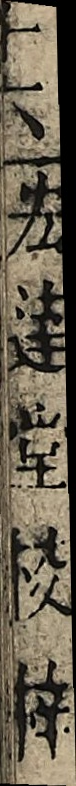宏達堂校梓
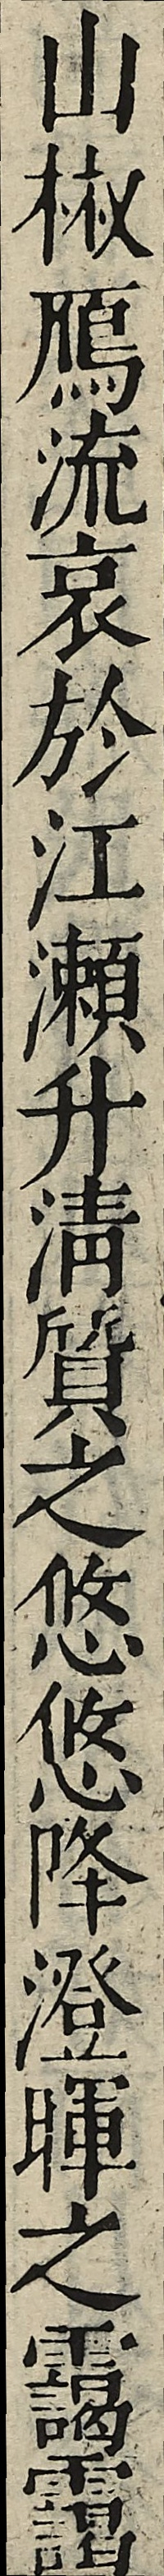山椒鴈流哀於江瀨升清質之悠悠降澄暉之靄靄
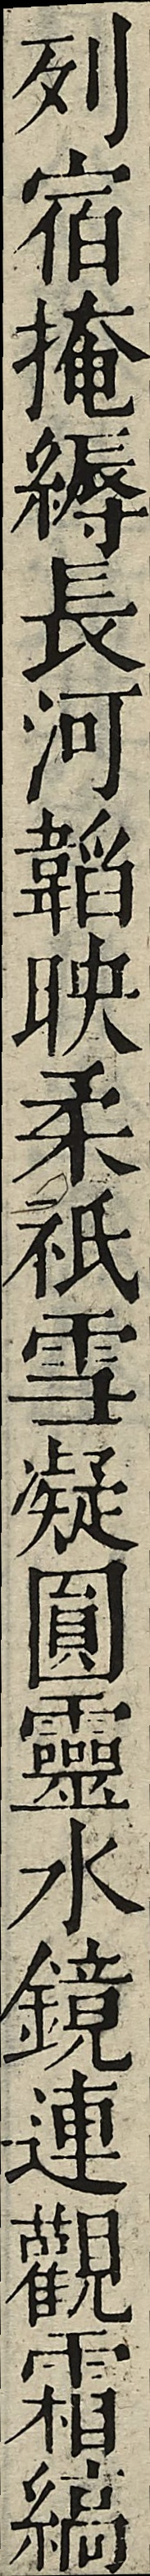列宿掩縟長河韜映柔祇雪凝圓靈水鏡連觀霜縞
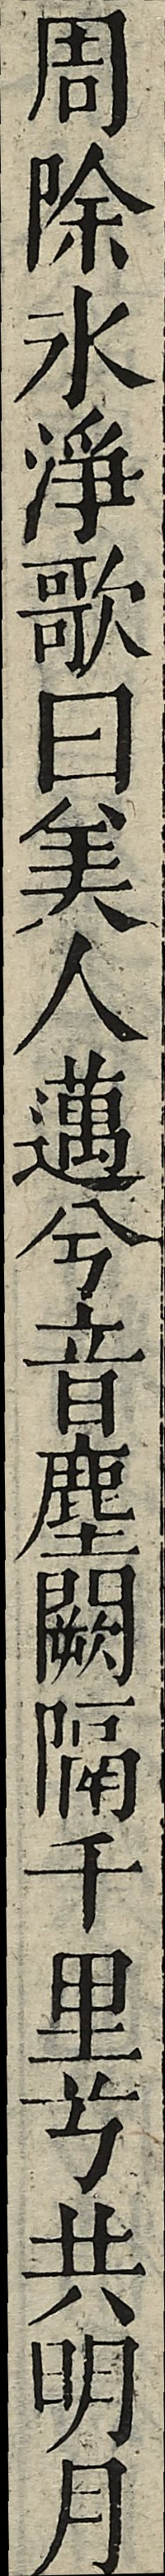周除冰淨歌曰美人邁兮音塵闕隔千里兮共明月
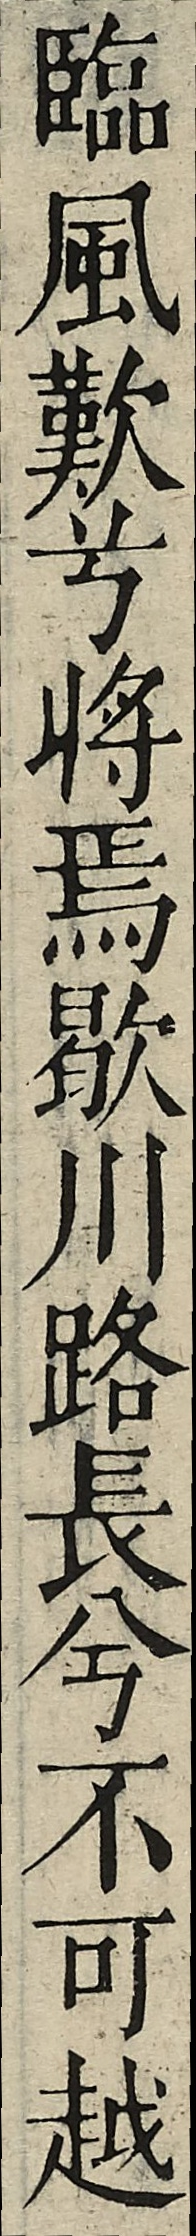臨風歎兮將焉歇川路長兮不可越
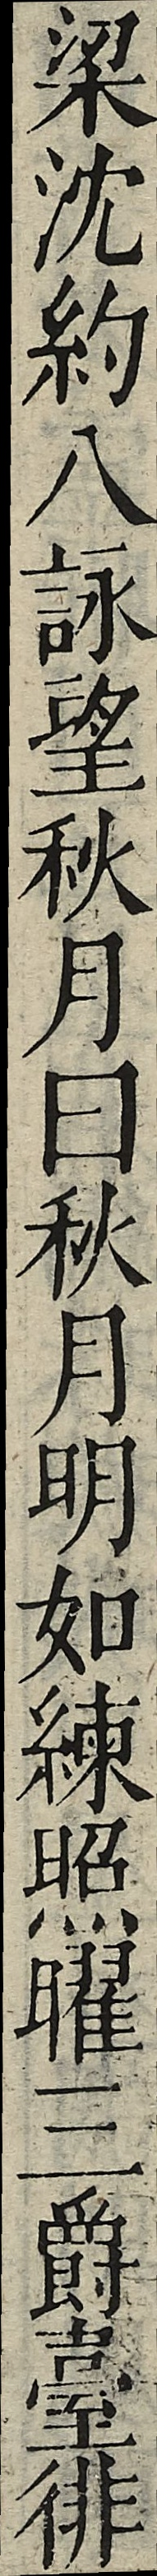梁沈約八詠望秋月曰秋月明如練照曜三爵臺徘
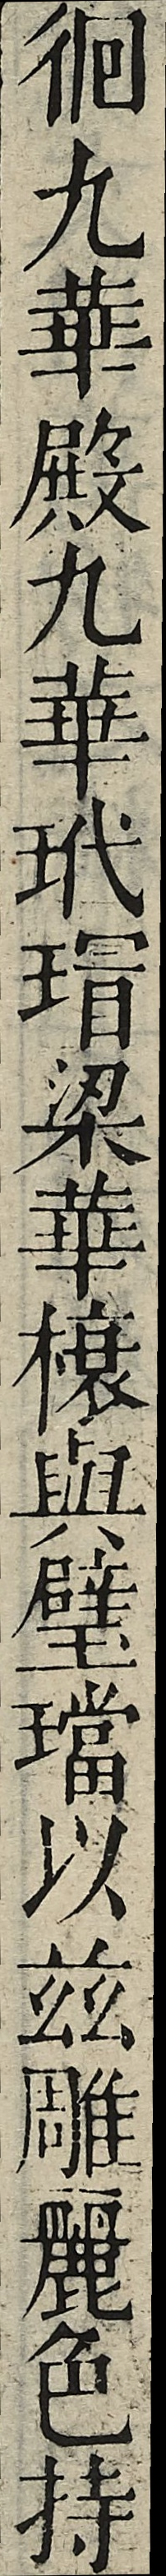徊九華殿九華玳瑁梁華榱與璧璫以茲雕麗色持
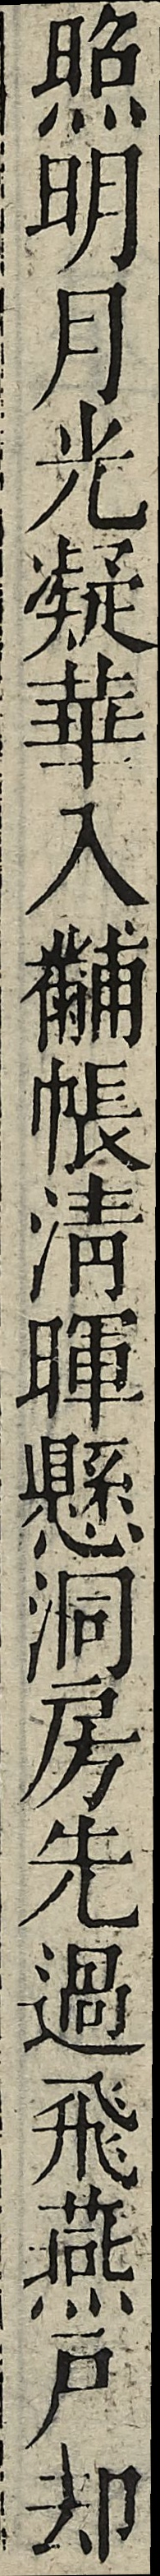照明月光凝華入黼帳清暉懸洞房先過飛燕戶卻
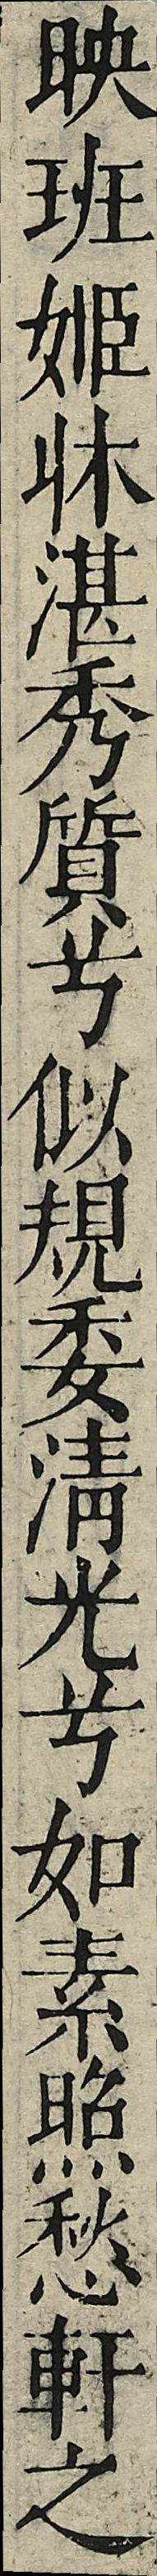映班姬床湛秀質兮似規委清光兮如素照愁軒之
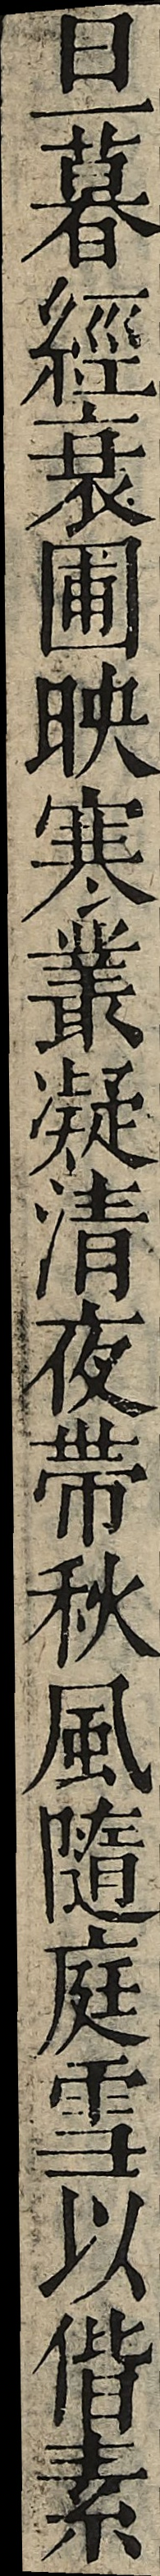旦暮經衰圃映寒叢凝清夜帶秋風隨庭雪以偕素
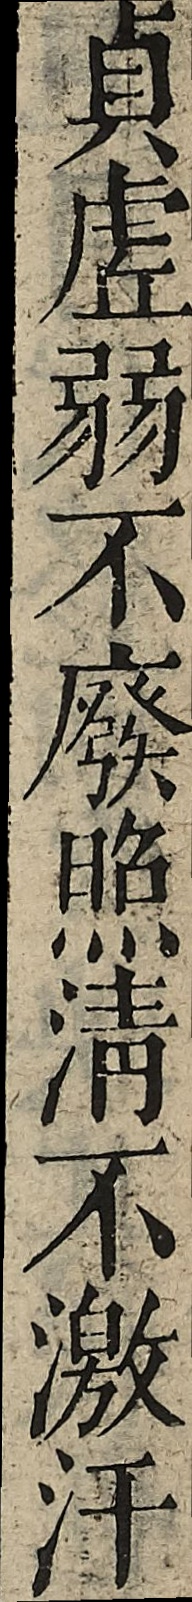貞虛弱不廢照清不激汙
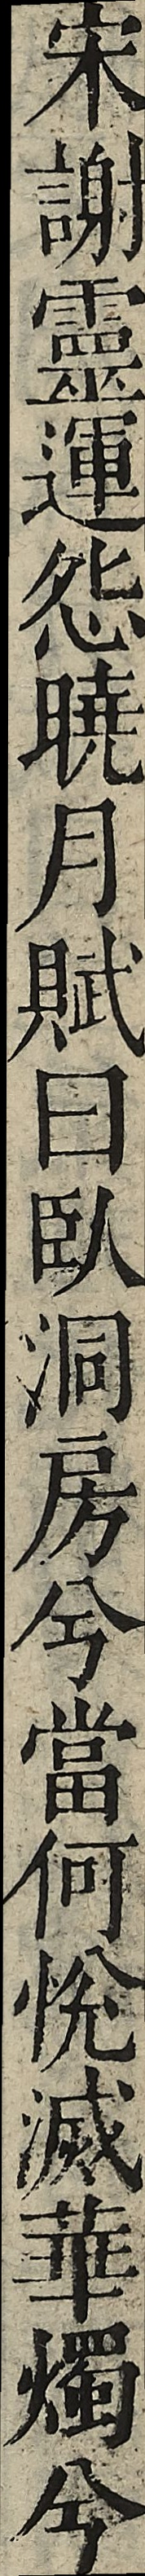宋謝靈運怨曉月賦曰臥洞房兮當何悅滅華燭兮
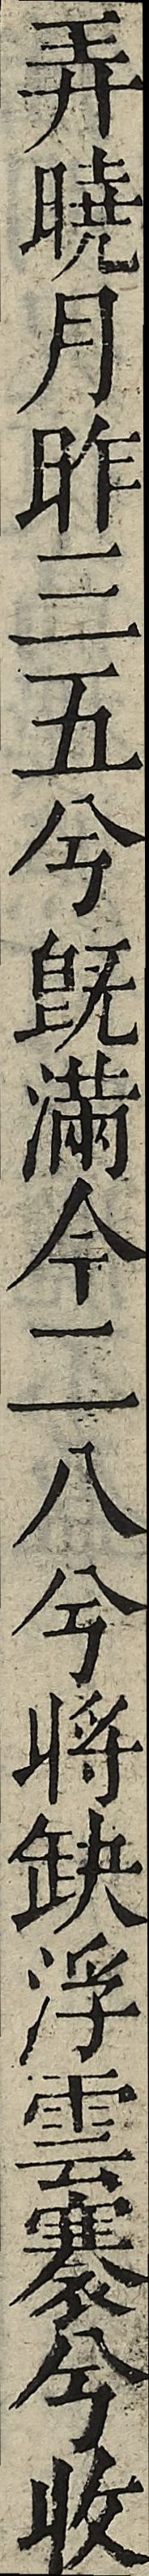弄曉月昨三五兮既滿今二八兮將缺浮雲褰兮收
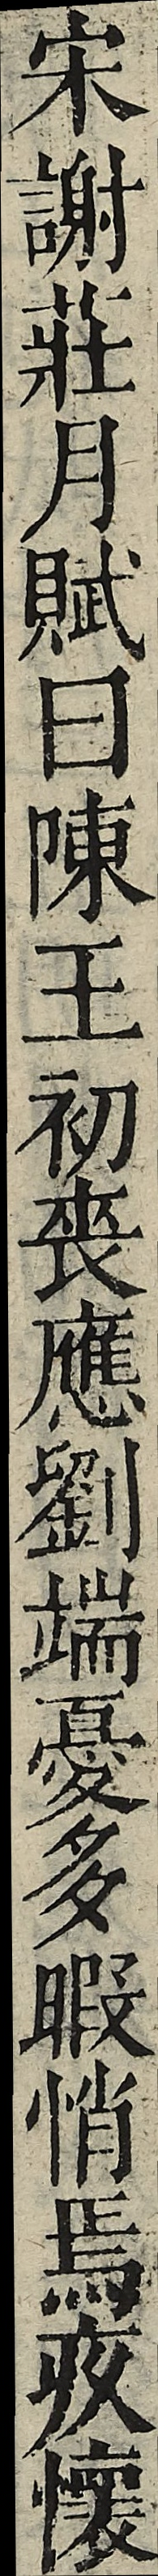宋謝莊月賦曰陳王初喪應劉端憂多暇悄焉疚懷
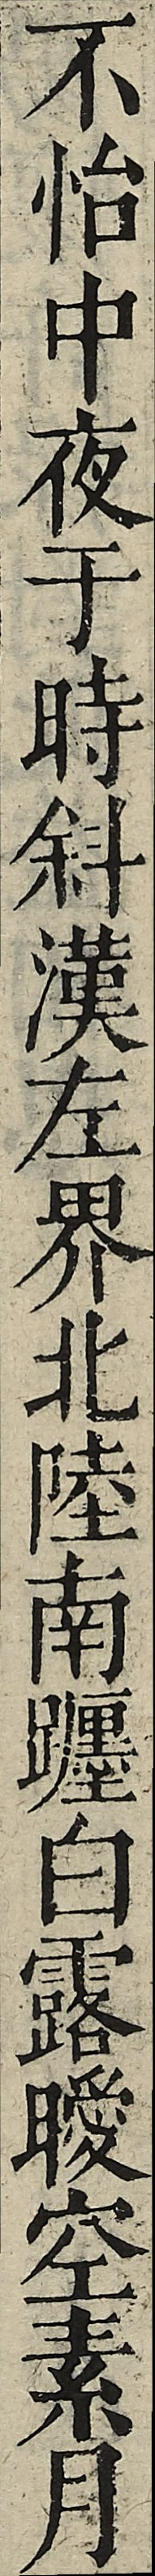不怡中夜于時斜漢左界北陸南躔白露曖空素月
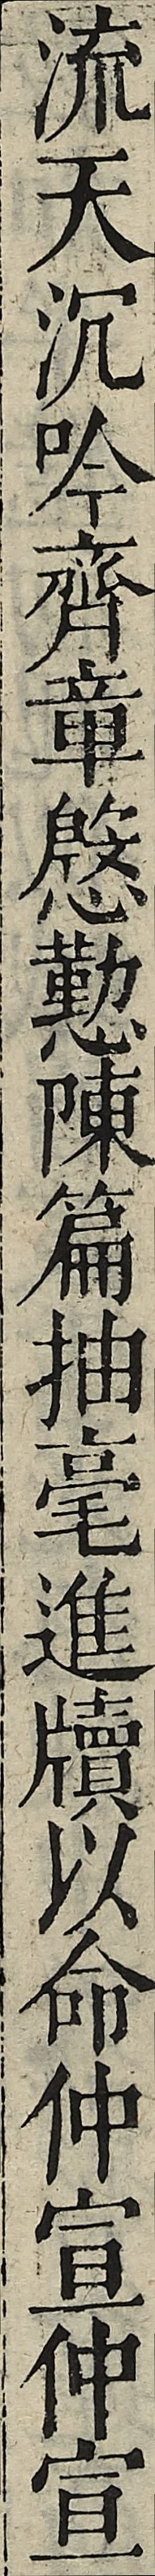流天沉吟齊章慇懃陳篇抽毫進牘以命仲宣仲宣
